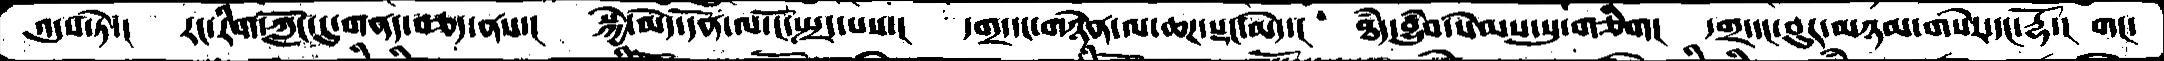འདུས་ཏེ་།   རང་རིག་ཀློང་དུ་གནད་བཅད་ནས་།   སྐྱེ་མེད་དོན་ལ་ངོ་སྤྲད་པས་།    དགྲ་དང་གཉེན་ལ་ཆཌ་སྡང་མེད་།   ཐཾད་བྱུཾབ་སེམས་སུ་གཅིག།   དགྲ་དང་བུར་མཉམ་གསེར་དང་རྡོ་།  གང་
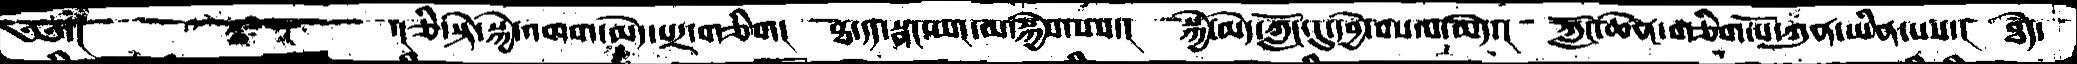༄༅་།            ་།ཅི་སྟེ་སྐྱེ་འགག་མེད་པར་གཅིག།   ཐ་དད་སྣང་ཡང་མ་སྐྱེས་པས་།   སྐྱེ་མེད་ཀློང་དུ་དབྱེ་བསལ་མེད་།   ཀློང་ཆེན་གཅིག་པོ་ཀུན་ཡིན་པས་།  ཐཾད་
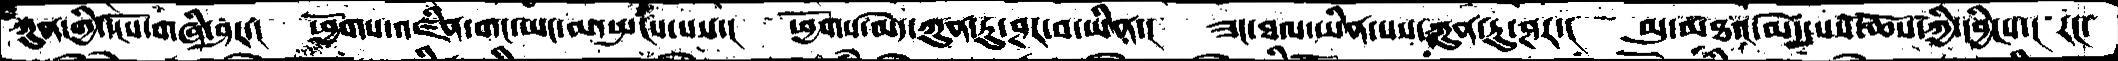ཀུན་གྱི་དངོས་གཞི་ཤར་། ཕྱོགས་འཛིན་གང་ཡང་མ་སྤངས་པས་།  ཕྱོགས་མེད་ཀུན་ཏུ་ཤར་བ་ཡིན་།  ཟང་ཐལ་ཡིན་པས་ཀུན་ཏུ་ཤར་།  མུ་མཐའ་མེད་པས་ཆོས་ཀྱི་དབྱིངས་།  རང་
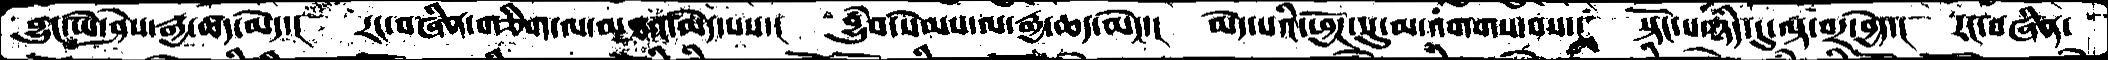བྱུང་ཡེ་ཤེས་རྒྱ་ཆད་མེད་།  རང་བཞིན་གཅིག་ལ་མཐའ་མེད་པས་།  བྱུཾབ་སེམས་ལ་རྒྱ་ཆད་མེད་།  མེད་པའི་ཕྱོཌ་སུ་མ་འགགས་བས་།  སྟོང་པ་ཉིད་དུ་ལྟ་བར་བྱེད་།  རང་བཞིན་
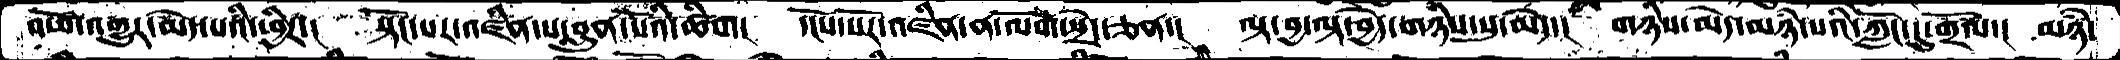འཕོ་འགྱུར་མེད་པའི་ཕྱིར་།   སྟོང་པར་འཛིན་པ་བླུན་པོའི་ཚིག།  དངོས་པོར་འཛིན་ན་ལོག་སྲེད་ཅན་།  ལྟ་བྱ་ལྟ་བྱེད་གཉིས་སུ་མེད་།  གཉིས་མེད་མཉཾ་པའི་ཀློང་དུ་གྲོལ་།  མཉཾ་
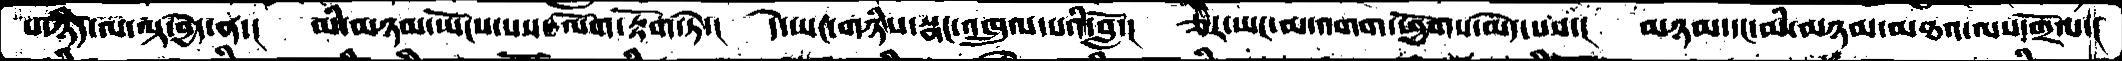པ་ཉིད་ལ་ལྟ་བྱེད་ན་།   མི་མཉམ་ཡོངས་པས་ལོག་རྟོག་ཏེ་།  དེ་ཡང་གཉིས་སྣང་འཁྲུལ་པའི་བློ་།  ཅིར་ཡང་མ་འགག་ཕྱོགས་མེད་པས་།  མཉམ་དང་མི་མཉམ་མཐའ་ལས་གྲོལ་།
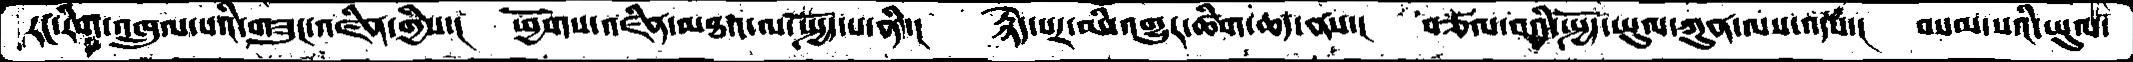རང་རིག་འཁྲུལ་པའི་གཟུང་འཛིན་གྱིས་།   ཕྱོགས་འཛིན་མཐའ་ལ་སྤྱོད་པ་ནི་།    རྙེད་པར་མི་འགྱུར་ཚིག་ཆད་ནས་།   བཙལ་བའི་སྤྱོད་ཡུལ་ཀུན་ལས་འདས་།   བསམ་པའི་ཡུལ་
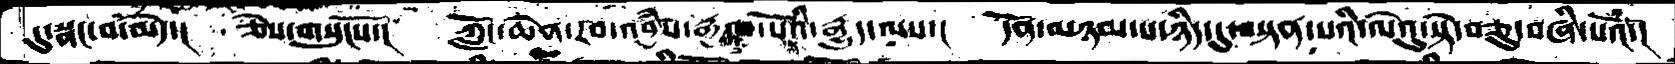དུ་སྣང་བ་མེད་།  ཅེས་གསུངསོ་།  ཀློང་ཆེན་རབ་འབྱཾས་རྒྱལ་པོའི་རྒྱུད་ལས་།  དོན་མཉམ་པ་ཉིད་དུ་བསྟན་པའི་ལེའུ་སྟེ་བཅུ་བཞི་པའོ་།
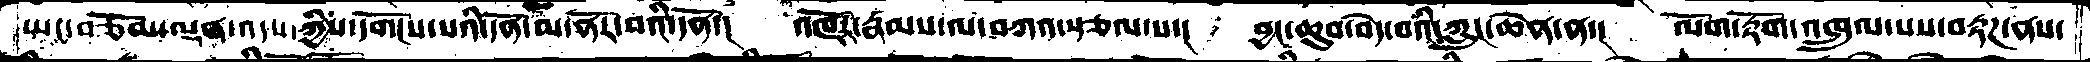ཡང་བཅོམ་ལྡན་འདས་ཀྱིས་དགོངས་པའི་དོན་མ་ནོར་བའི་དོན་།   འཁོར་རྣམས་ལ་བཀའ་སྩལ་པ་།   བྱང་ཆུབ་བདེ་བའི་ཀླུང་ཆེན་ན་།   ལོག་རྟོག་འཁྲུལ་པས་བརྟཌ་ནས་
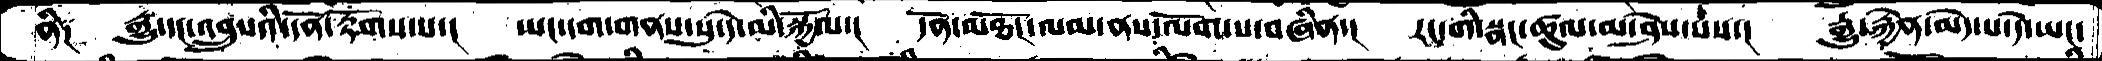ནི༑   རྒྱུ་དང་འབྲུསའི་དོན་རྟོགས་པ་།   ཡང་དག་གནས་སུ་དེ་མི་སྐྱོལ་།   དོན་མཐོང་ལམ་ནས་ལོག་པ་བཞིན་།   རང་གི་སྣང་ཚུལ་མ་ཤེས་པས་།   རྒྱུ་རྐྱེན་མེད་པ་དེ་ཡང་
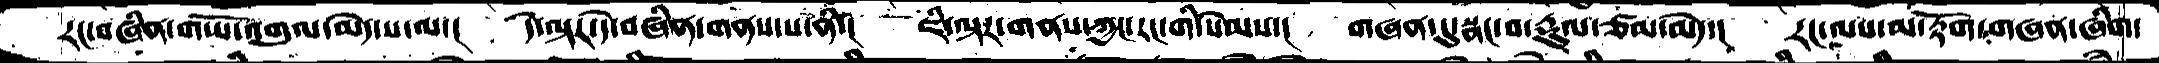རང་བཞིན་གཡོ་འགུལ་མེད་པ་ལ་། དེ་ལྟར་དེ་བཞིན་གནས་པ་ནི་། ཇི་ལྟར་གནས་ཀྱང་རང་གི་སེམས་། གཞན་དུ་སྣང་བ་རྡུལ་ཙམ་མེད་། རང་ལས་མ་རྟོག་གཞན་ཞིག
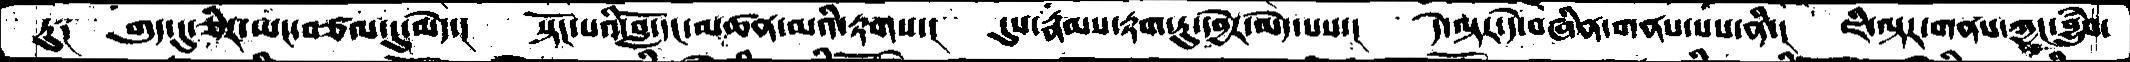ཏུ༑   གུད་དུ་ཅིར་ཡང་བཙལ་དུ་མེད་།   སྟོང་པའི་བློ་དང་མཚན་མའི་རྟགས་།   དུས་རྣམས་རྟག་ཏུ་དབྱེར་མེད་པས་།    དེ་ལྟར་དེ་བཞིན་གནས་པས་ནི་།   ཇི་ལྟར་གནས་ཀྱང་བྱུཾབ་
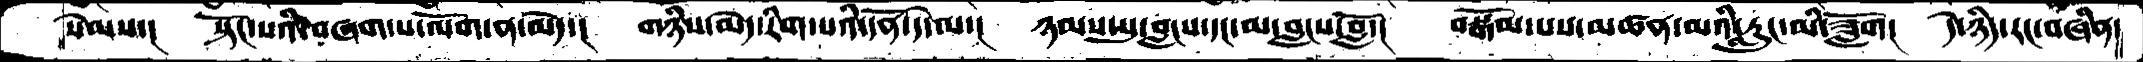སེམས་། སྟོང་པའི་བཞག་པ་ལོག་ན་མེད་། གཉིས་མེད་རིག་པའི་དོན་དེ་ལ་། ཉམས་སུ་བླངས་དང་མ་བླངས་བློ་། བསྒོམ་པས་མཚན་མའི་རླུང་མི་ཟློག། དེ་ཉིད་རང་བཞིན
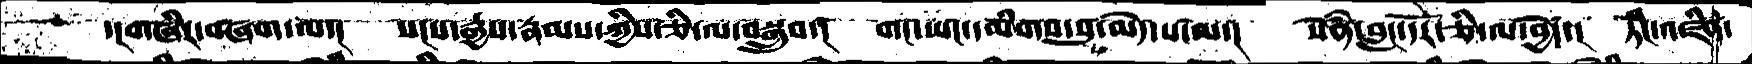་།གཞིར་བཞག་ལ་།    སངས་རྒྱས་རྣམས་ཀྱིས་ཅི་ལ་བསྒྲུབ་།   གང་ཡང་དམིགས་སུ་མེད་པ་ལ་།    སེནཾ་བླང་དོར་ཅི་ལ་བྱེད་།   ཏིང་འཛིན་
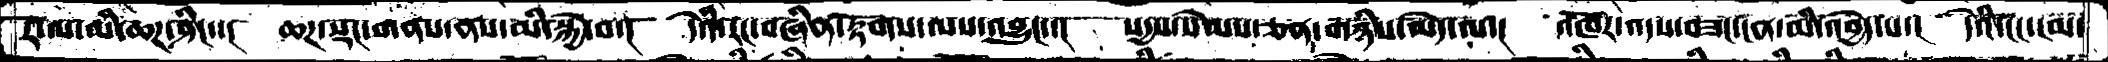རོ་ལ་མི་ཆཌ་ཤིང་་།   ཆཌ་སྡང་གནས་ནས་མི་སྐྱེ་བ་།   དེའི་རང་བཞིན་རྟོགས་ལས་འབྱུང་་།   སདྱས་སེམས་ཅན་གཉིས་མེད་ལ་།    འཁོར་འདས་བཟང་ངན་མི་འབྱེད་པ་།  དེའི་ངང་ངམ་
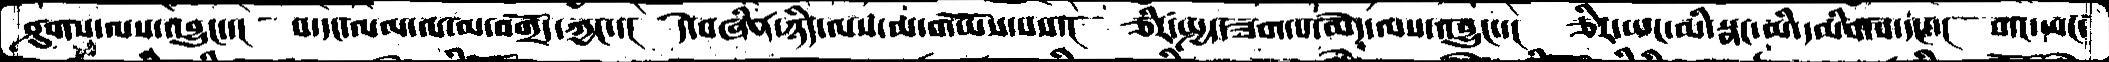ཤུགས་ལས་འབྱུང་་།  ས་དང་ལམ་ལ་མ་བགྲོད་ཀྱང་་།  དེ་བཞིན་ཉིད་ལས་མ་གཡོས་པས་།  ཅིར་སྤྱད་ཟག་པ་མེད་ལས་འབྱུང་་།  ཅིར་ཡང་མི་སྣང་མི་དམིགས་དང་་།  གང་ཡང་
